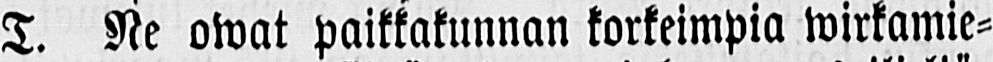T. Ne owat paikkakunnan korkeimpia wirkamie-
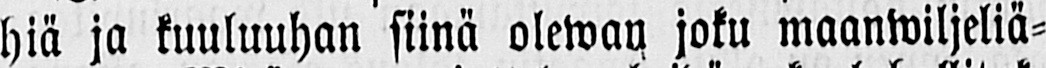hiä ja kuuluuhan siinä olewan joku maanwiljeliä-
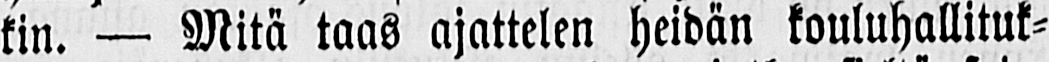kin. — Mitä taas ajattelen heidän kouluhallituk-
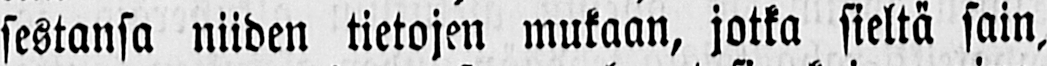sestansa niiden tietojen mukaan, jotka sieltä sain,
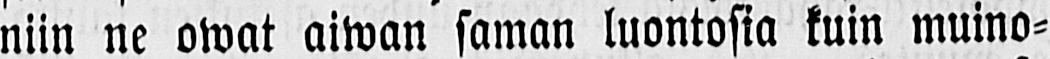niin ne owat aiwan saman luontosia kuin muino-
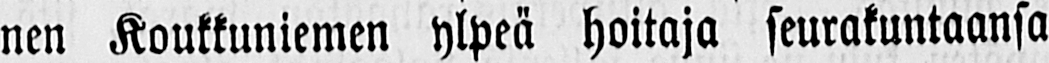nen Koukkuniemen ylpeä hoitaja seurakuntaansa
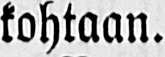kohtaan.
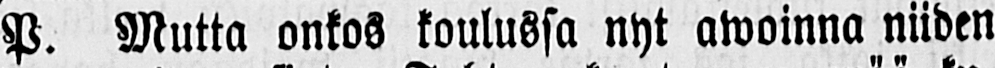P. Mutta onkos koulussa nyt awoinna niiden
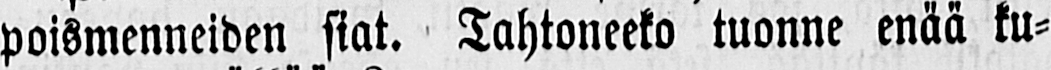poismenneiden siat. Tahtoneeko tuonne enää ku-
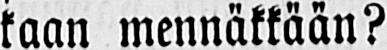kaan mennäkkään?
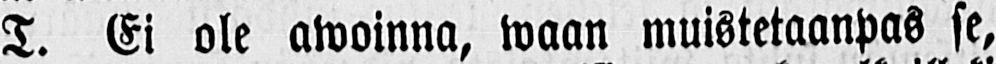T. Ei ole awoinna, waan muistetaanpas se,
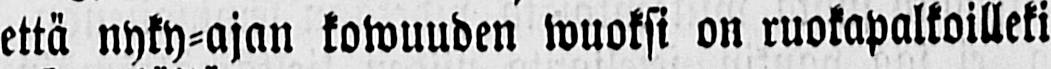että nyky-ajan kowuuden wuoksi on ruokapalkoilleki
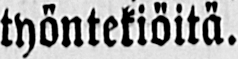työntekiöitä.
